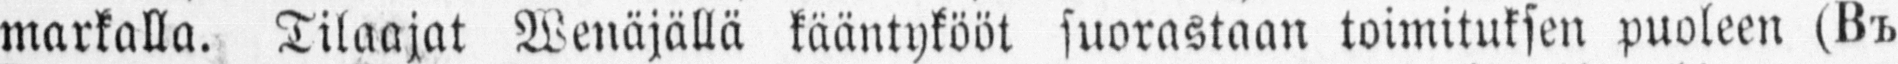markalla. Tilaajat Wenäjällä kääntykööt suorastaan toimituksen puoleen (Bъ
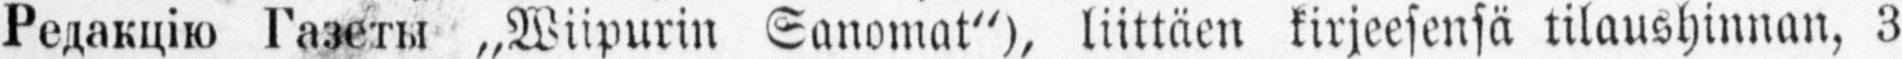Peдaкцiю Газe3тЫ „Wiipurin Sanomat"), liittäen kirjeesensä tilaushinnan, 3
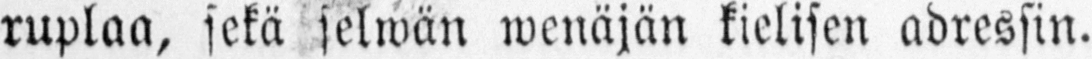ruplaa, sekä selwän wenäjän kielisen adressin.
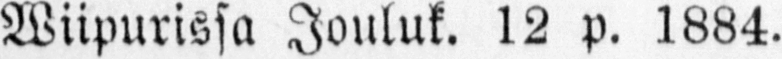Wiipurissa Jouluk. 12 p. 1884.
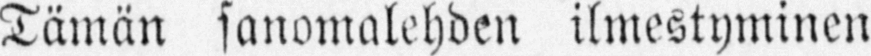Tämän sanomalehden ilmestyminen
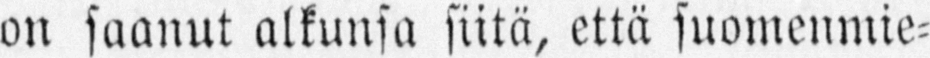on saanut alkunsa siitä, että suomenmie-
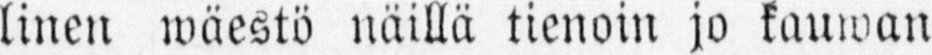linen wäestö näillä tienoin jo kauwan
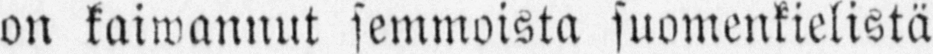on kaiwannut semmoista suomenkielistä
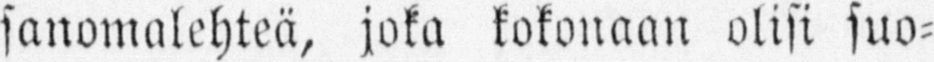sanomalehteä, joka kokonaan olisi suo-
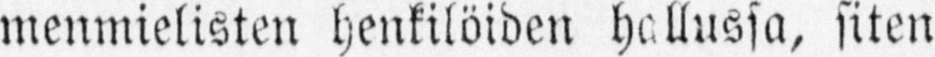menmielisten henkilöiden hallussa, siten
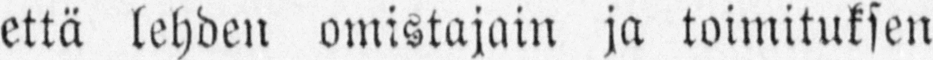että lehden omistajain ja toimituksen
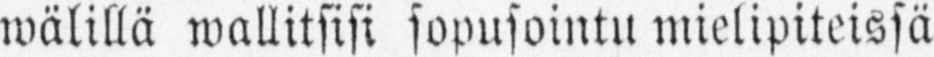wälillä wallitsisi sopusointu mielipiteissä
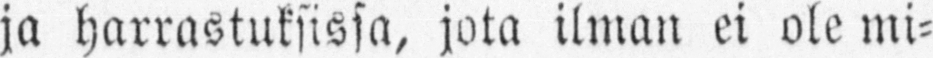ja harrastuksissa, jota ilman ei ole mi-
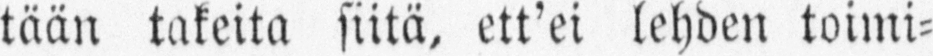tään takeita siitä, ett'ei lehden toimi-
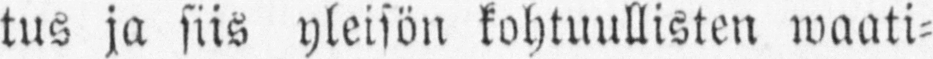tus ja siis yleisön kohtuullisten waati-
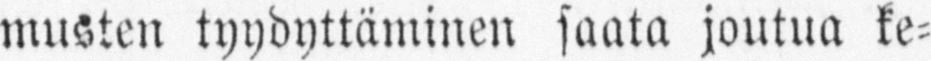musten tyydyttäminen saata joutua ke-
